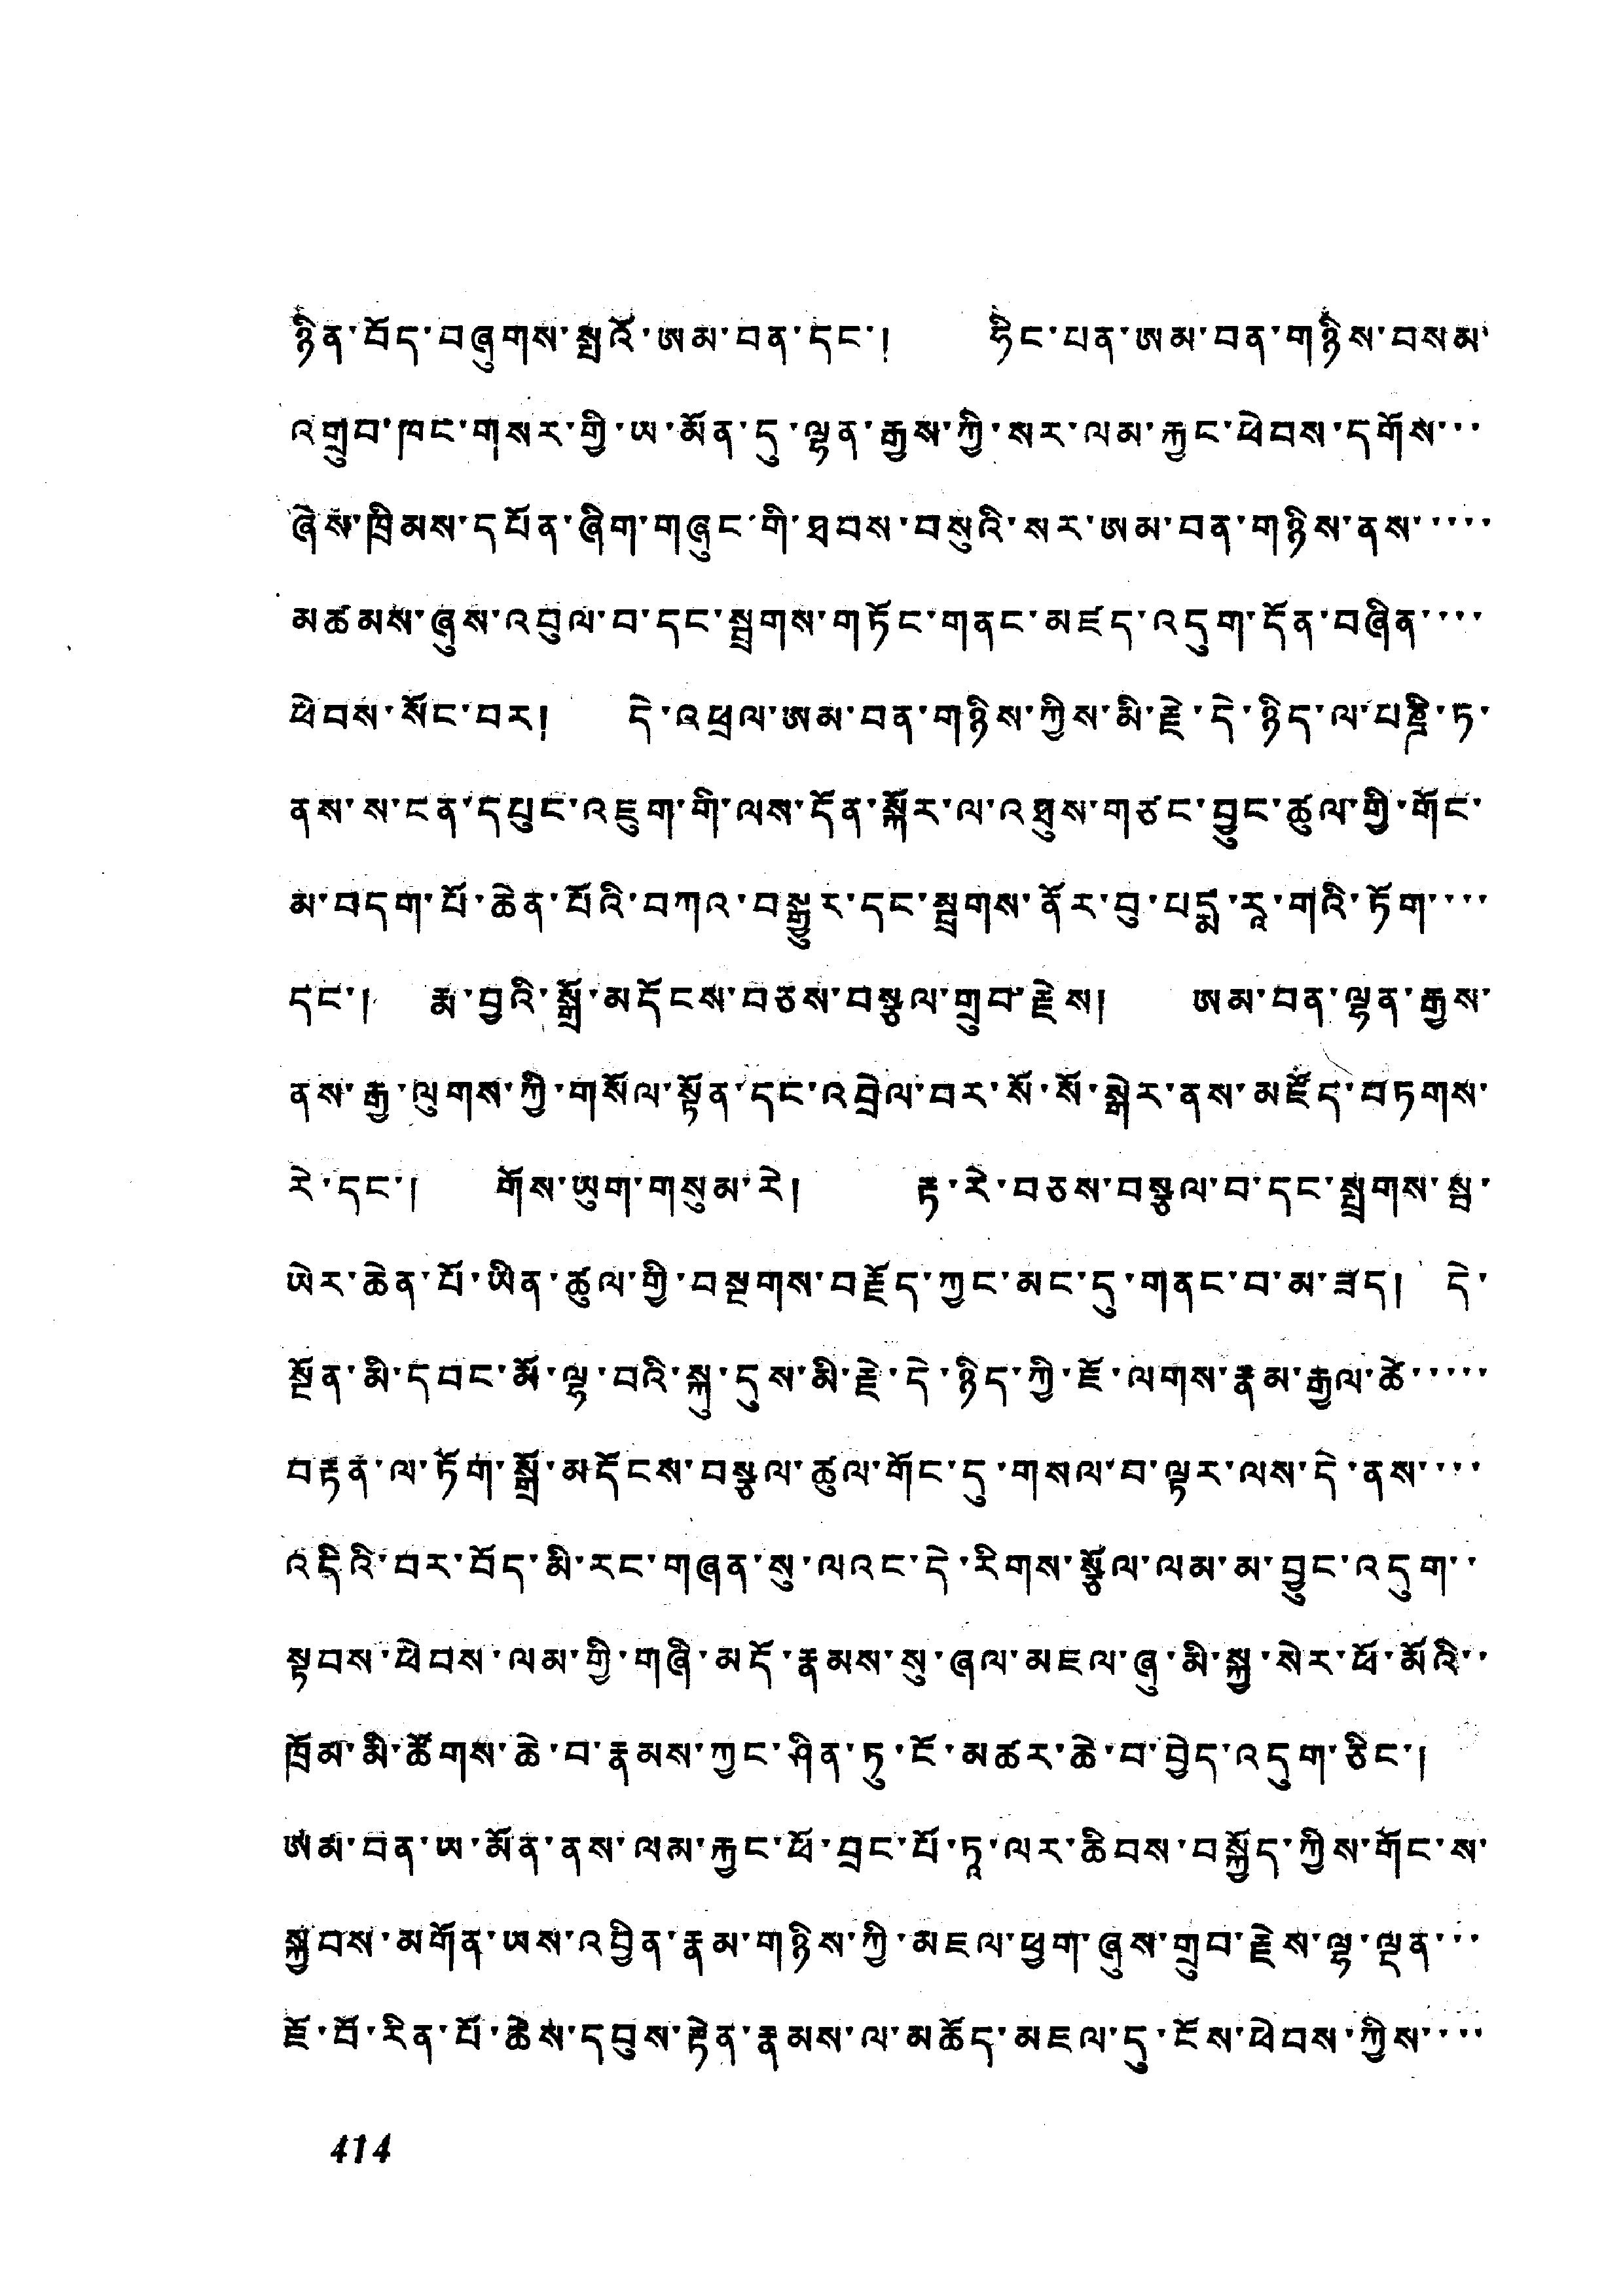ཉིན་བོད་བཞུགས་སྤའོ་ཨམ་བན་དང་། ཧིང་པན་ཨམ་བན་གཉིས་བསམ་
འགྲུབ་ཁང་གསར་གྱི་ཡ་མོན་དུ་ལྷན་རྒྱས་ཀྱི་སར་ལམ་རྐྱང་ཕེབས་དགོས་་་
ཞེས་ཁྲིམས་དཔོན་ཞིག་གཞུང་གི་ཐབས་བསུའི་སར་ཨམ་བན་གཉིས་ནས་་་་་
མཚམས་ཞུས་འབུལ་བ་དང་སྦྲགས་གཏོང་གནང་མཛད་འདུག་དོན་བཞིན་་་་
ཕེབས་སོང་བར། དེ་འཕྲལ་ཨམ་བན་གཉིས་ཀྱིས་མི་རྗེ་དེ་ཉིད་ལ་པཎྜི་ཏ་
ནས་ས་ངན་དཔུང་འཇུག་གི་ལས་དོན་སྐོར་ལ་འཐུས་གཙང་བྱུང་ཚུལ་གྱི་གོང་
མ་བདག་པོ་ཆེན་པོའི་བཀའ་བསྒྱུར་དང་སྦྲགས་ནོར་བུ་པདྨ་རཱ་གའི་ཏོག་་་་
དང་། རྨ་བྱའི་སྒྲོ་མདོངས་བཅས་བསྩལ་གྲུབ་རྗེས། ཨམ་བན་ལྷན་རྒྱས་
ནས་རྒྱ་ལུགས་ཀྱི་གསོལ་སྟོན་དང་འབྲེལ་བར་སོ་སོར་སྒེར་ནས་མཛོད་བཏགས་
རེ་དང་། གོས་ཡུག་གསུམ་རེ། རྟ་རེ་བཅས་བསྩལ་བ་དང་སྦྲགས་སྦ་
ཡེར་ཆེན་པོ་ཡིན་ཚུལ་གྱི་བསྔགས་བརྗོད་ཀྱང་མང་དུ་གནང་བ་མ་ཟད། དེ་
སྔོན་མི་དབང་མོ་ལྷ་བའི་སྐུ་དུས་མི་རྗེ་དེ་ཉིད་ཀྱི་ཇོ་ལགས་རྣམ་རྒྱལ་ཚེ་་་་་
བརྟན་ལ་ཏོག་སྒྲོ་མདོངས་བསྩལ་ཚུལ་གོང་དུ་གསལ་བ་ལྟར་ལས་དེ་ནས་་་་
འདིའི་བར་བོད་མི་རང་གཞན་སུ་ལའང་དེ་རིགས་སྩོལ་ལམ་མ་བྱུང་འདུག་་
སྟབས་ཕེབས་ལམ་གྱི་གཞི་མདོ་རྣམས་སུ་ཞལ་མཇལ་ཞུ་མི་སྐྱ་སེར་ཕོ་མོའི་་
ཁྲོམ་མི་ཚོགས་ཆེ་བ་རྣམས་ཀྱང་ཤིན་ཏུ་ངོ་མཚར་ཆེ་བ་བྱེད་འདུག་ཅིང་།
ཨམ་བན་ཡ་མོན་ནས་ལམ་རྐྱང་ཕོ་བྲང་པོ་ཏའ་ལར་ཆིབས་བསྐྱོད་ཀྱིས་གོང་ས་
སྐྱབས་མགོན་ཡས་འབྱིན་རྣམ་གཉིས་ཀྱི་མཇལ་ཕྱག་གྲུབ་རྗེས་ལྷ་ལྡན་་་
ཇོ་བོ་རིན་པོ་ཆེས་དབུས་རྟེན་རྣམས་ལ་མཆོད་མཇལ་དུ་ངོས་ཕེབས་ཀྱིས་་་་
414
